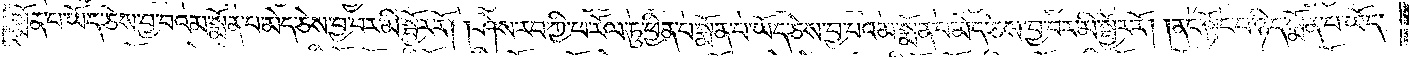སྨོན་པ་ཡོད་ཅེས་བྱ་བའམ་སྨོན་པ་མེད་ཅེས་བྱ་བར་མི་སྦྱོར་རོ། །ཤེས་རབ་ཀྱི་ཕ་རོལ་ཏུ་ཕྱིན་པ་སྨོན་པ་ཡོད་ཅེས་བྱ་པའམ་སྨོན་པ་མེད་ཅེས་བྱ་བར་མི་སྦྱོར་རོ། །ནང་སྟོང་པ་ཉིད་སྨོན་པ་ཡོད་
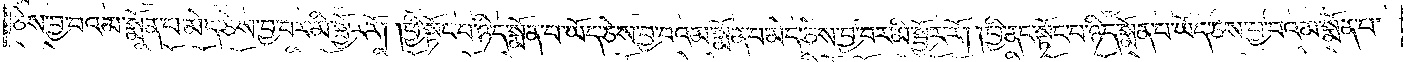ཅེས་བྱ་བའམ་སྨོན་པ་མེད་ཅེས་བྱ་བར་མི་སྦྱོར་རོ། །ཕྱི་སྟོང་པ་ཉིད་སྨོན་པ་ཡོད་ཅེས་བྱ་བའམ་སྨོན་པ་མེད་ཅེས་བྱ་བར་མི་སྦྱོར་རོ། །ཕྱི་ནང་སྟོང་པ་ཉིད་སྨོན་པ་ཡོད་ཅེས་བྱ་བའམ་སྨོན་པ་
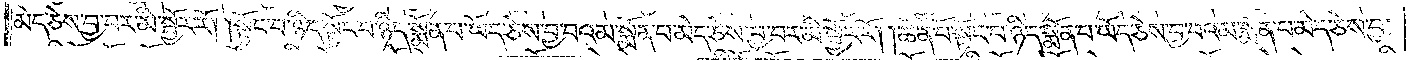མེད་ཅེས་བྱ་བར་མི་སྦྱོར་རོ། །སྟོང་པ་ཉིད་སྟོང་པ་ཉིད་སྨོན་པ་ཡོད་ཅེས་བྱ་བའམ་སྨོན་པ་མེད་ཅེས་བྱ་བར་མི་སྦྱོར་རོ། །ཆེན་པོ་སྟོང་པ་ཉིད་སྨོན་པ་ཡོད་ཅེས་བྱ་བའམ་སྨོན་པ་མེད་ཅེས་བྱ་
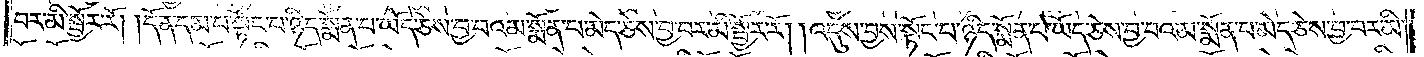བར་མི་སྦྱོར་རོ། །དོན་དམ་པ་སྟོང་པ་ཉིད་སྨོན་པ་ཡོད་ཅེས་བྱ་བའམ་སྨོན་པ་མེད་ཅེས་བྱ་བར་མི་སྦྱོར་རོ། །འདུས་བྱས་སྟོང་པ་ཉིད་སྨོན་པ་ཡོད་ཅེས་བྱ་བའམ་སྨོན་པ་མེད་ཅེས་བྱ་བར་མི་
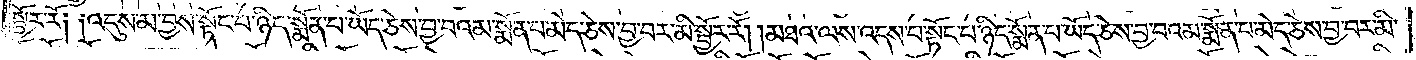སྦྱོར་རོ༑ ༑འདུས་མ་བྱས་སྟོང་པ་ཉིད་སྨོན་པ་ཡོད་ཅེས་བྱ་བའམ་སྨོན་པ་མེད་ཅེས་བྱ་བར་མི་སྦྱོར་རོ། །མཐའ་ལས་འདས་པ་སྟོང་པ་ཉིད་སྨོན་པ་ཡོད་ཅེས་བྱ་བའམ་སྨོན་པ་མེད་ཅེས་བྱ་བར་མི་
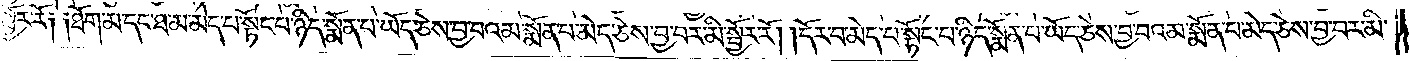སྦྱོར་རོ༑ ༑ཐོག་མ་དང་ཐམ་མེད་པ་སྟོང་པ་ཉིད་སྨོན་པ་ཡོད་ཅེས་བྱ་བའམ་སྨོན་པ་མེད་ཅེས་བྱ་བར་མི་སྦྱོར་རོ། །དོར་བ་མེད་པ་སྟོང་པ་ཉིད་སྨོན་པ་ཡོད་ཅེས་བྱ་བའམ་སྨོན་པ་མེད་ཅེས་བྱ་བར་མི་
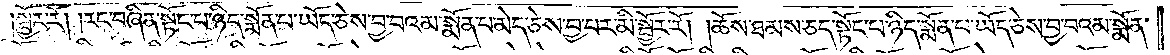སྦྱོར་རོ། །རང་བཞིན་སྟོང་པ་ཉིད་སྨོན་པ་ཡོད་ཅེས་བྱ་བའམ་སྨོན་པ་མེད་ཅེས་བྱ་བར་མི་སྦྱོར་རོ། །ཆོས་ཐམས་ཅད་སྟོང་པ་ཉིད་སྨོན་པ་ཡོད་ཅེས་བྱ་བའམ་སྨོན་
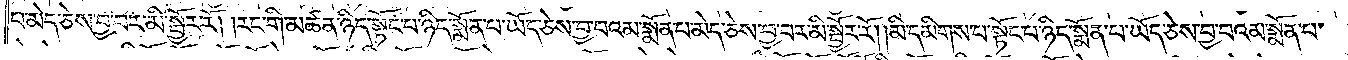པ་མེད་ཅེས་བྱ་བར་མི་སྦྱོར་རོ། །རང་གི་མཚན་ཉིད་སྟོང་པ་ཉིད་སྨོན་པ་ཡོད་ཅེས་བྱ་བའམ་སྨོན་པ་མེད་ཅེས་བྱ་བར་མི་སྦྱོར་རོ། །མི་དམིགས་པ་སྟོང་པ་ཉིད་སྨོན་པ་ཡོད་ཅེས་བྱ་བའམ་སྨོན་པ་
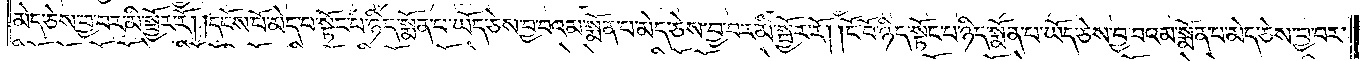མེད་ཅེས་བྱ་བར་མི་སྦྱོར་རོ། །དངོས་པོ་མེད་པ་སྟོང་པ་ཉིད་སྨོན་པ་ཡོད་ཅེས་བྱ་བའམ་སྨོན་པ་མེད་ཅེས་བྱ་བར་མི་སྦྱོར་རོ། །ངོ་བོ་ཉིད་སྟོང་པ་ཉིད་སྨོན་པ་ཡོད་ཅེས་བྱ་བའམ་སྨོན་པ་མེད་ཅེས་བྱ་བར་
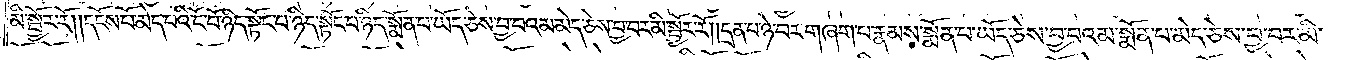མི་སྦྱོར་རོ། །དངོས་པོ་མེད་པའི་ངོ་བོ་ཉིད་སྟོང་པ་ཉིད་སྟོང་པ་ཡོད་ཅེས་བྱ་བའམ་མེད་ཅེས་བྱ་བར་མི་སྦྱོར་རོ། །དྲན་པ་ཉེ་བར་གཞག་པ་རྣམས་སྨོན་པ་ཡོད་ཅེས་བྱ་བའམ་སྨོན་པ་མེད་ཅེས་བྱ་བར་མི་
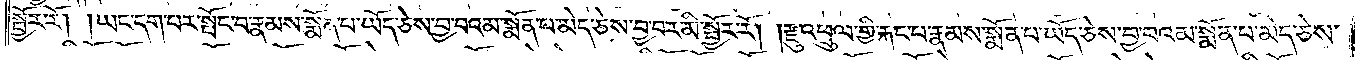སྦྱོར་རོ། །ཡང་དག་པར་སྤོང་བ་རྣམས་སྨོན་པ་ཡོད་ཅེས་བྱ་བའམ་སྨོན་པ་མེད་ཅེས་བྱ་བར་མི་སྦྱོར་རོ། །རྫུ་འཕྲུལ་གྱི་རྐང་པ་རྣམས་སྨོན་པ་ཡོད་ཅེས་བྱ་བའམ་སྨོན་པ་མེད་ཅེས་
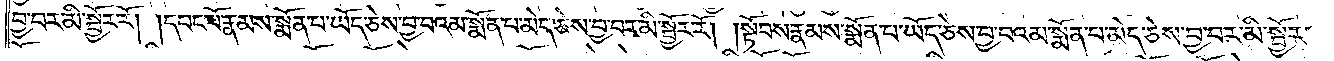བྱ་བར་མི་སྦྱོར་རོ། །དབང་པོ་རྣམས་སྨོན་པ་ཡོད་ཅེས་བྱ་བའམ་སྨོན་པ་མེད་ཅེས་བྱ་བར་མི་སྦྱོར་རོ། །སྟོབས་རྣམས་སྨོན་པ་ཡོད་ཅེས་བྱ་བའམ་སྨོན་པ་མེད་ཅེས་བྱ་བར་མི་སྦྱོར་
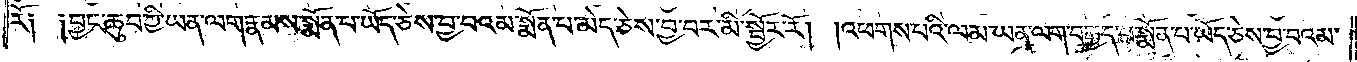རོ༑ ༑བྱང་ཆུབ་ཀྱི་ཡན་ལག་རྣམས་སྨོན་པ་ཡོད་ཅེས་བྱ་བའམ་སྨོན་པ་མེད་ཅེས་བྱ་བར་མི་སྦྱོར་རོ། །འཕགས་པའི་ལམ་ཡན་ལག་བརྒྱད་པ་སྨོན་པ་ཡོད་ཅེས་བྱ་བའམ་
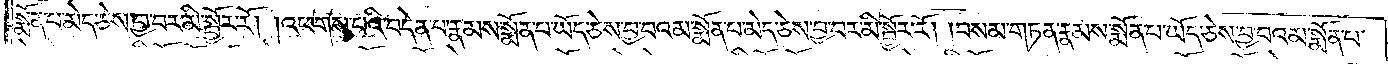སྨོན་པ་མེད་ཅེས་བྱ་བར་མི་སྦྱོར་རོ། །འཕགས་པའི་བདེན་པ་རྣམས་སྨོན་པ་ཡོད་ཅེས་བྱ་བའམ་སྨོན་པ་མེད་ཅེས་བྱ་བར་མི་སྦྱོར་རོ། །བསམ་གཏན་རྣམས་སྨོན་པ་ཡོད་ཅེས་བྱ་བའམ་སྨོན་པ་
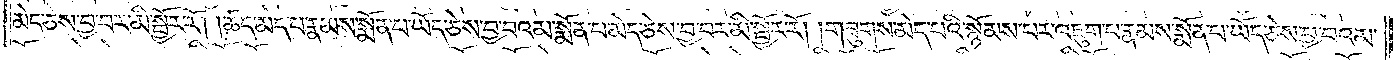མེད་ཅེས་བྱ་བར་མི་སྦྱོར་རོ། །ཚད་མེད་པ་རྣམས་སྨོན་པ་ཡོད་ཅེས་བྱ་བའམ་སྨོན་པ་མེད་ཅེས་བྱ་བར་མི་སྦྱོར་རོ། །གཟུགས་མེད་པའི་སྙོམས་པར་འཇུག་པ་རྣམས་སྨོན་པ་ཡོད་ཅེས་བྱ་བའམ་
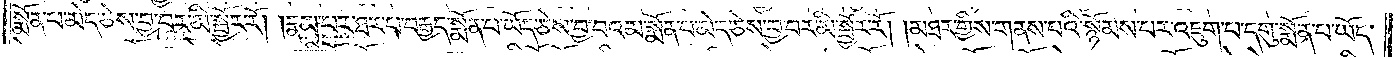སྨོན་པ་མེད་ཅེས་བྱ་བར་མི་སྦྱོར་རོ། །རྣམ་པར་ཐར་པ་བརྒྱད་སྨོན་པ་ཡོད་ཅེས་བྱ་བའམ་སྨོན་པ་མེད་ཅེས་བྱ་བར་མི་སྦྱོར་རོ། །མཐར་གྱིས་གནས་པའི་སྙོམས་པར་འཇུག་པ་དགུ་སྨོན་པ་ཡོད་
